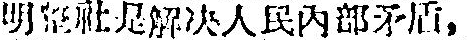明整社是解決人民內部矛盾，
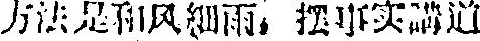方法是和风細雨，摆事实講道
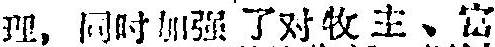理，同时加强了对牧主、富
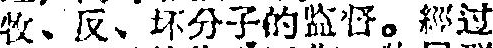牧、反、坏分子的监督。經过
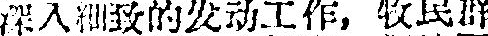深入細致的发动工作，牧民群
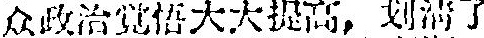众政治覚悟大大提高，划清了
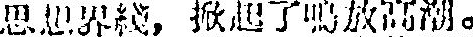思想界綫，掀起了鳴放高潮。
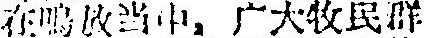在鳴放当中，广大牧民群
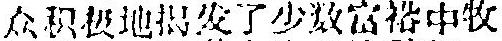众积极地揭发了少数富裕中牧
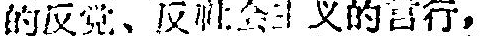的反党、反社会主义的言行，
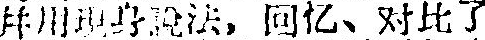并用現身說法，回忆、对比了
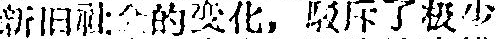新旧社全的变化，駁斥了极少
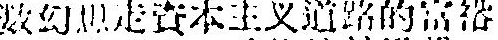數幻想走資本主义道路的富裕
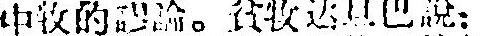中牧的謬論。貧牧达旦巴說：
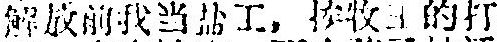解放前我当盐工，挨牧主的打
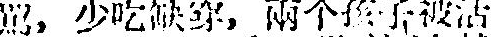罵，少吃缺穿，兩个孩子被活
